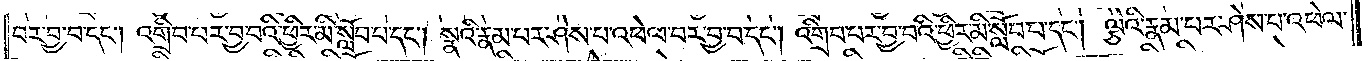བར་བྱ་བ་དང༌། འགྲིབ་པར་བྱ་བའི་ཕྱིར་མི་སློབ་པ་དང༌། སྣའི་རྣམ་པར་ཤེས་པ་འཕེལ་བར་བྱ་བ་དང༌། འགྲིབ་པར་བྱ་བའི་ཕྱིར་མི་སློབ་པ་དང༌། ལྕེའི་རྣམ་པར་ཤེས་པ་འཕེལ་
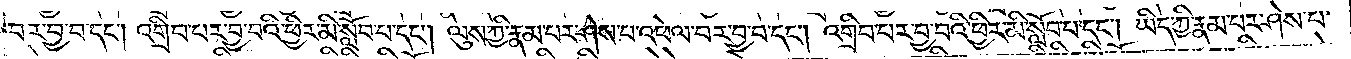བར་བྱ་བ་དང༌། འགྲིབ་པར་བྱ་བའི་ཕྱིར་མི་སློབ་པ་དང༌། ལུས་ཀྱི་རྣམ་པར་ཤེས་པ་འཕེལ་བར་བྱ་བ་དང༌། འགྲིབ་པར་བྱ་བའི་ཕྱིར་མི་སློབ་པ་དང༌། ཡིད་ཀྱི་རྣམ་པར་ཤེས་པ་
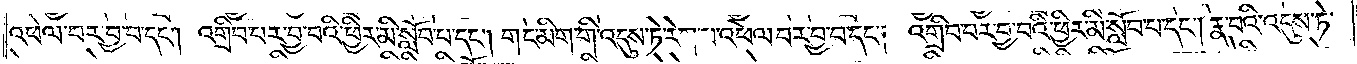འཕེལ་བར་བྱ་བ་དང༌། འགྲིབ་པར་བྱ་བའི་ཕྱིར་མི་སློབ་པ་དང༌། གང་མིག་གི་འདུས་ཏེ་རེག་པ་འཕེལ་བར་བྱ་བ་དང༌། འགྲིབ་པར་བྱ་བའི་ཕྱིར་མི་སློབ་པ་དང༌། རྣ་བའི་འདུས་ཏེ་
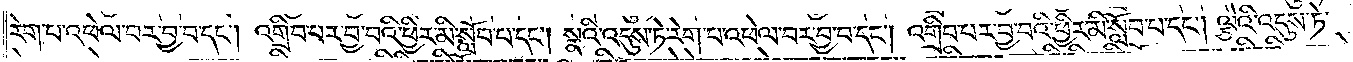རེག་པ་འཕེལ་བར་བྱ་བ་དང༌། འགྲིབ་པར་བྱ་བའི་ཕྱིར་མི་སློབ་པ་དང༌། སྣའི་འདུས་ཏེ་རེག་པ་འཕེལ་བར་བྱ་བ་དང༌། འགྲིབ་པར་བྱ་བའི་ཕྱིར་མི་སློབ་པ་དང༌། ལྕེའི་འདུས་ཏེ་
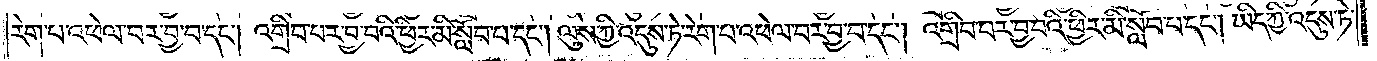རེག་པ་འཕེལ་བར་བྱ་བ་དང༌། འགྲིབ་པར་བྱ་བའི་ཕྱིར་མི་སློབ་པ་དང༌། ལུས་ཀྱི་འདུས་ཏེ་རེག་པ་འཕེལ་བར་བྱ་བ་དང༌། འགྲིབ་པར་བྱ་བའི་ཕྱིར་མི་སློབ་པ་དང༌། ཡིད་ཀྱི་འདུས་ཏེ་
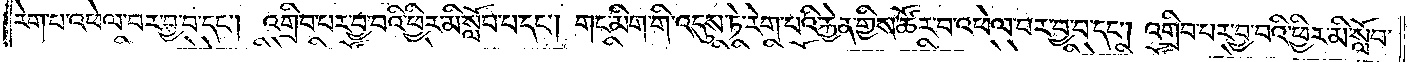རེག་པ་འཕེལ་བར་བྱ་བ་དང༌། འགྲིབ་པར་བྱ་བའི་ཕྱིར་མི་སློབ་པ་དང༌། གང་མིག་གི་འདུས་ཏེ་རེག་པའི་རྐྱེན་གྱིས་ཚོར་བ་འཕེལ་བར་བྱ་བ་དང༌། འགྲིབ་པར་བྱ་བའི་ཕྱིར་མི་སློབ་
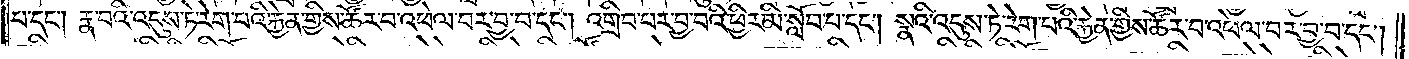པ་དང༌། རྣ་བའི་འདུས་ཏེ་རེག་པའི་རྐྱེན་གྱིས་ཚོར་བ་འཕེལ་བར་བྱ་བ་དང༌། འགྲིབ་པར་བྱ་བའི་ཕྱིར་མི་སློབ་པ་དང༌། སྣའི་འདུས་ཏེ་རེག་པའི་རྐྱེན་གྱིས་ཚོར་བ་འཕེལ་བར་བྱ་བ་དང༌།
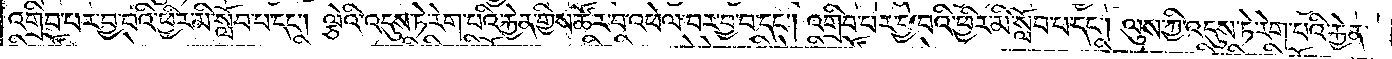འགྲིབ་པར་བྱ་བའི་ཕྱིར་མི་སློབ་པ་དང༌། ལྕེའི་འདུས་ཏེ་རེག་པའི་རྐྱེན་གྱིས་ཚོར་བ་འཕེལ་བར་བྱ་བ་དང༌། འགྲིབ་པར་བྱ་བའི་ཕྱིར་མི་སློབ་པ་དང༌། ལུས་ཀྱི་འདུས་ཏེ་རེག་པའི་རྐྱེན་
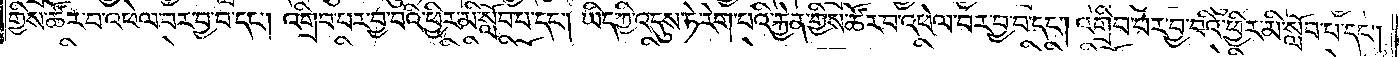གྱིས་ཚོར་བ་འཕེལ་བར་བྱ་བ་དང༌། འགྲིབ་པར་བྱ་བའི་ཕྱིར་མི་སློབ་པ་དང༌། ཡིད་ཀྱི་འདུས་ཏེ་རེག་པའི་རྐྱེན་གྱིས་ཚོར་བ་འཕེལ་བར་བྱ་བ་དང༌། འགྲིབ་པར་བྱ་བའི་ཕྱིར་མི་སློབ་པ་དང༌།
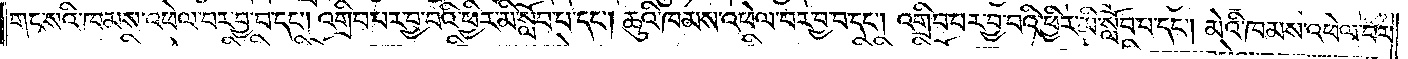གང་སའི་ཁམས་འཕེལ་བར་བྱ་བ་དང༌། འགྲིབ་པར་བྱ་བའི་ཕྱིར་མི་སློབ་པ་དང༌། ཆུའི་ཁམས་འཕེལ་བར་བྱ་བ་དང༌། འགྲིབ་པར་བྱ་བའི་ཕྱིར་མི་སློབ་པ་དང༌། མེའི་ཁམས་འཕེལ་བར་
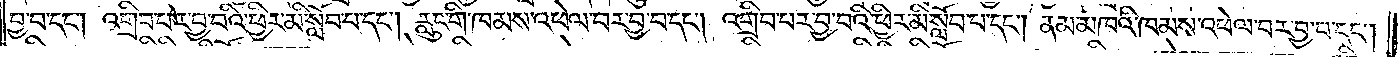བྱ་བ་དང༌། འགྲིབ་པར་བྱ་བའི་ཕྱིར་མི་སློབ་པ་དང༌། རླུང་གི་ཁམས་འཕེལ་བར་བྱ་བ་དང༌། འགྲིབ་པར་བྱ་བའི་ཕྱིར་མི་སློབ་པ་དང༌། ནམ་མཁའི་ཁམས་འཕེལ་བར་བྱ་བ་དང༌།
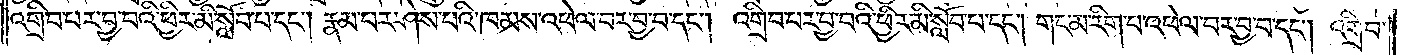འགྲིབ་པར་བྱ་བའི་ཕྱིར་མི་སློབ་པ་དང༌། རྣམ་པར་ཤེས་པའི་ཁམས་འཕེལ་བར་བྱ་བ་དང༌། འགྲིབ་པར་བྱ་བའི་ཕྱིར་མི་སློབ་པ་དང༌། གང་མ་རིག་པ་འཕེལ་བར་བྱ་བ་དང༌། འགྲིབ་
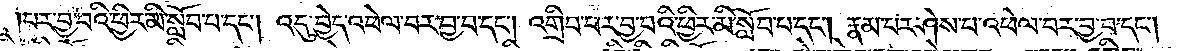པར་བྱ་བའི་ཕྱིར་མི་སློབ་པ་དང༌། འདུ་བྱེད་འཕེལ་བར་བྱ་བ་དང༌། འགྲིབ་པར་བྱ་བའི་ཕྱིར་མི་སློབ་པ་དང༌། རྣམ་པར་ཤེས་པ་འཕེལ་བར་བྱ་བ་དང༌།
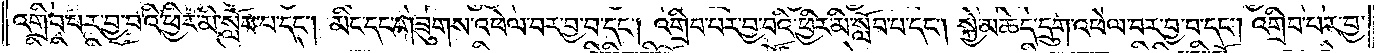འགྲིབ་པར་བྱ་བའི་ཕྱིར་མི་སློབ་པ་དང༌། མིང་དང་གཟུགས་འཕེལ་བར་བྱ་བ་དང༌། འགྲིབ་པར་བྱ་བའི་ཕྱིར་མི་སློབ་པ་དང༌། སྐྱེ་མཆེད་དྲུག་འཕེལ་བར་བྱ་བ་དང༌། འགྲིབ་པར་བྱ་
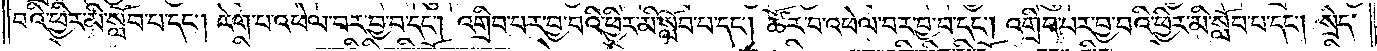བའི་ཕྱིར་མི་སློབ་པ་དང༌། རེག་པ་འཕེལ་བར་བྱ་བ་དང༌། འགྲིབ་པར་བྱ་བའི་ཕྱིར་མི་སློབ་པ་དང༌། ཚོར་བ་འཕེལ་བར་བྱ་བ་དང༌། འགྲིབ་པར་བྱེ་བའི་ཕྱིར་མི་སློབ་པ་དང༌། སྲེད་
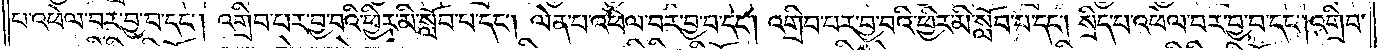པ་འཕེལ་བར་བྱ་བ་དང༌། འགྲིབ་པར་བྱ་བའི་ཕྱིར་མི་སློབ་པ་དང༌། ལེན་པ་འཕེལ་བར་བྱ་བ་དང༌། འགྲིབ་པར་བྱ་བའི་ཕྱིར་མི་སློབ་པ་དང༌། སྲིད་པ་འཕེལ་བར་བྱ་བ་དང༌། འགྲིབ་
